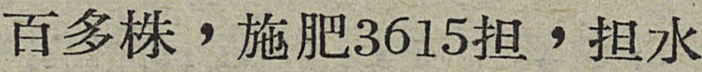百多株，施肥3615担，担水
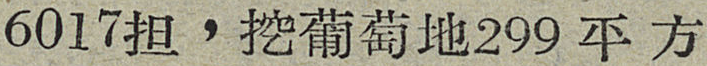6017担，挖葡萄地299平方
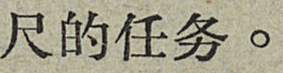尺的任务。
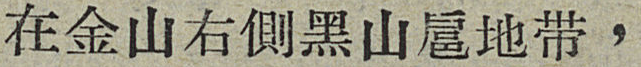在金山右側黑山扈地帶，
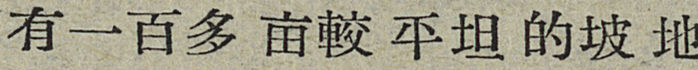有一百多亩較平坦的坡地
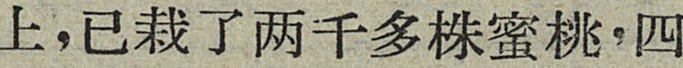上，已栽了两千多株蜜桃，四
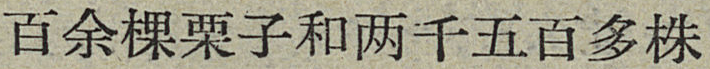百余棵栗子和两千五百多株
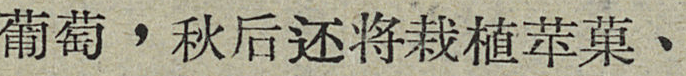葡萄，秋后还将栽植苹菓、
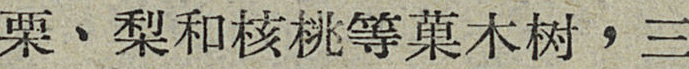栗、梨和核桃等菓木树，三
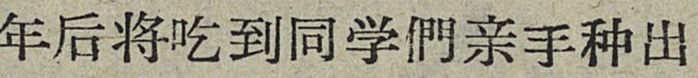年后将吃到同学們亲手种出
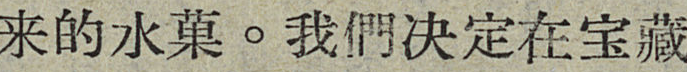来的水菓。我們决定在宝藏
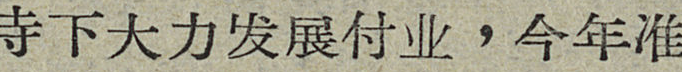寺下大力发展付业，今年准
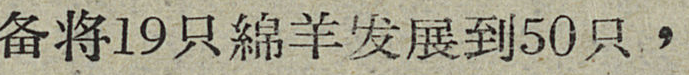备将19只綿羊发展难道50只，
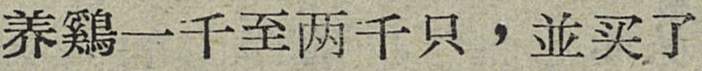养鷄一千至两千只，並买了
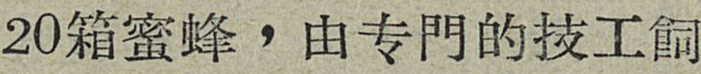20箱蜜蜂，由专門的技工飼
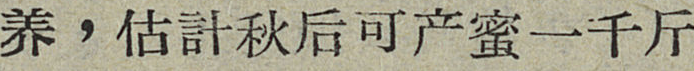养，估計秋后可产蜜一千斤
